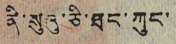ནི་སུའུ་ཅི་ཐང་ཀུང་
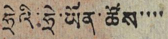ཧྲེའི་ཧྲེ་ཡོན་ཚོས་་་་
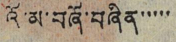འོ་མ་བཞོ་བཞིན་་་་་
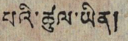པའི་ཚུལ་ཡིན།
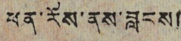ཕན་རོས་ནས་བླངས།
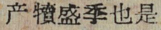产犢盛季也是
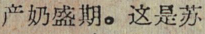产奶盛期。这是苏
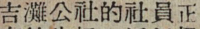吉灘公社的社員正
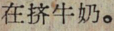在挤牛奶。
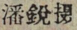潘銳摄
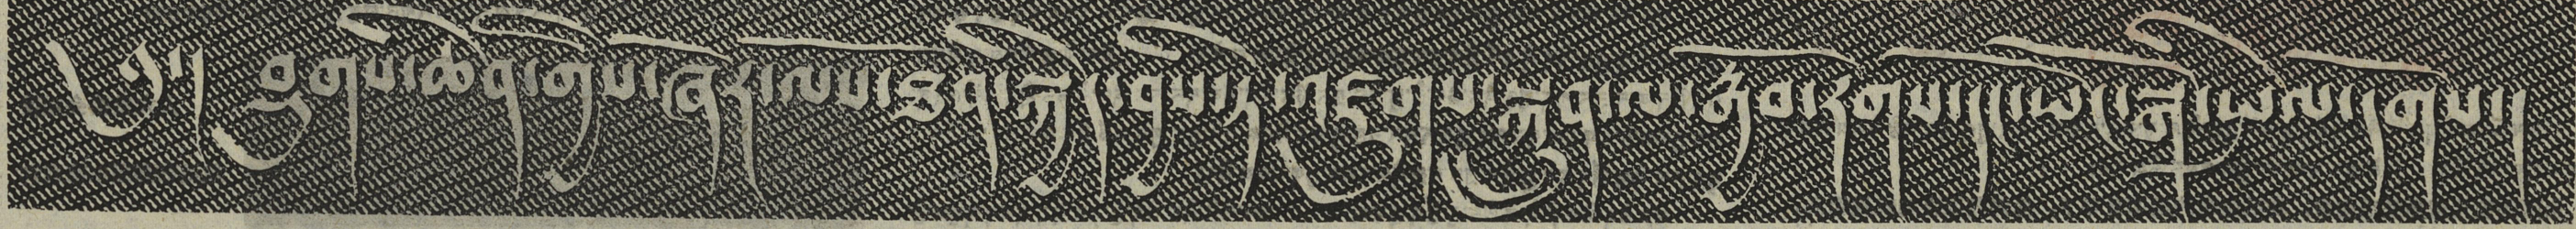༄༅། བྲུགས་ཆེན་གྱིས་ཞོར་ལས་ཐོན་སྐྱེད་བྱས་ཏེ་འཛུགས་སྐྲུན་ལ་རྒྱབ་རོགས་དང་ཡོད་སྒོ་སྤེལ་དགོས།
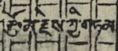རྩོམ་རྗེས་ཀྱི་གཏམ
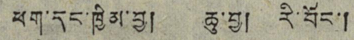ཕག་དང་ཁྱིམ་བྱ། ཆུ་བྱ། རི་བོང་།
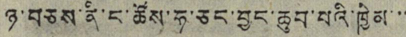ཉ་བཅས་ནི་ང་ཚོས་ཧ་ཅང་བྱང་ཆུབ་པའི་ཁྱིམ་་་
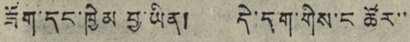ཟོག་དང་ཁྱིམ བྱ་ཡིན། དེ་དག་གིས་ང ཚོར་་
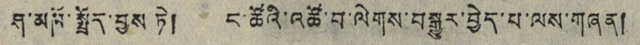ཤ་མཁོ་སྤྲོད་བྱས ཏེ། ང་ཚོའི་འཚོ་བ་ལེགས་བསྒྱུར་བྱེད་པ་ལས་གཞན།
